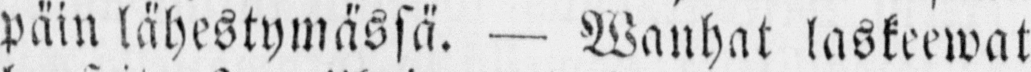päin lähestymässä. — Wanhat laskeewat
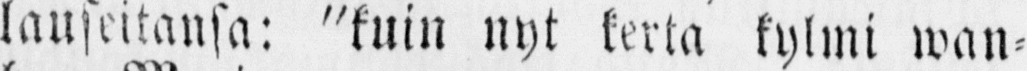lauseitansa: "kuin nyt kerta kylmi wan-
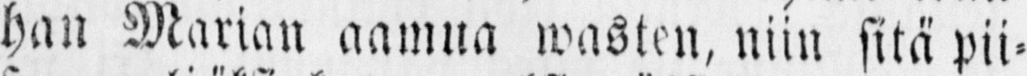han Marian aamua wasten, niin sitä pii-
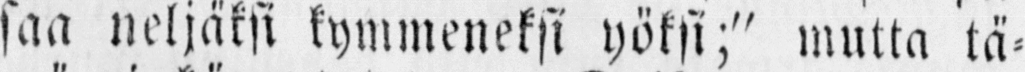saa neljäksi kymmeneksi yöksi;" mutta tä-
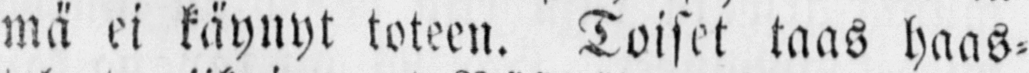mä ei käynyt toteen. Toiset taas haas-
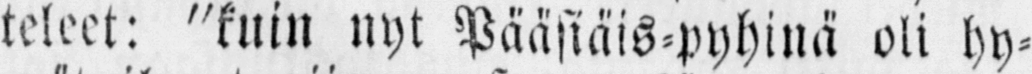teleet: "kuin nyt Pääsiäis-pyhinä oli hy-
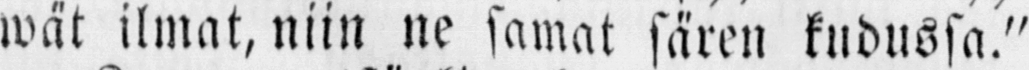wät ilmat, niin ne samat sären kudussa."
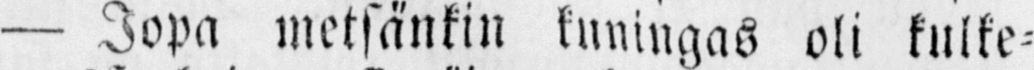— Jopa metsänkin kuningas oli kulke-
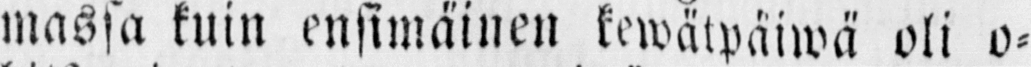massa kuin ensimäinen kewätpäiwä oli o-
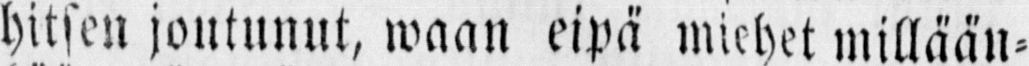hitsen joutunut, waan eipä miehet millään-
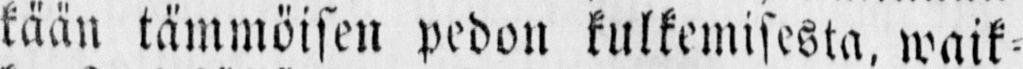kään tämmöisen pedon kulkemisesta, waik-
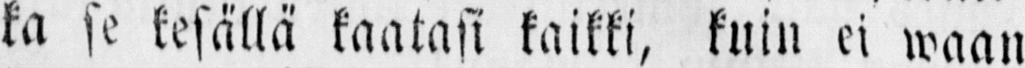ka se kesällä kaatasi kaikki, kuin ei waan
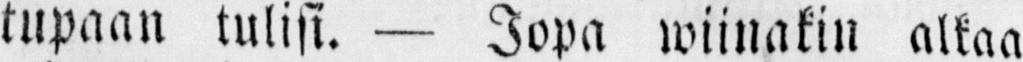tupaan tulisi. — Jopa wiinakin alkaa
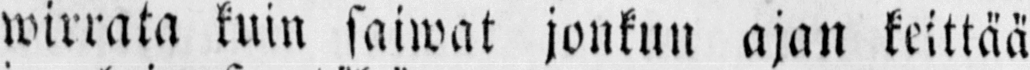wirrata kuin saiwat jonkun ajan keittää
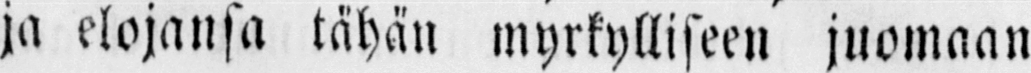ja elojansa tähän myrkylliseen juomaan
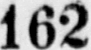162
